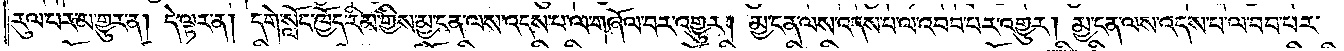རུལ་པར་མ་གྱུར་ན། དེ་ལྟར་ན། དགེ་སློང་ཁྱོད་རིམ་གྱིས་མྱ་ངན་ལས་འདས་པ་ལ་གཞོལ་བར་འགྱུར། མྱ་ངན་ལས་འདས་པ་ལ་འབབ་པར་འགྱུར། མྱ་ངན་ལས་འདས་པ་ལ་བབ་པར་
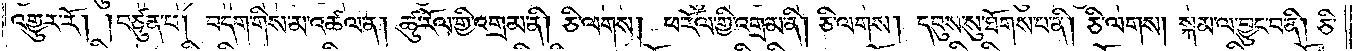འགྱུར་རོ། །བཙུན་པ། བདག་གིས་མ་འཚལ་ན། ཚུ་རོལ་གྱི་འགྲམ་ནི། ཅི་ལགས། ཕ་རོལ་གྱི་འགྲམ་ནི། ཅི་ལགས། དབུས་སུ་ཐོགས་པ་ནི། ཅི་ལགས། སྐམ་ལ་བྱུང་བ་ནི། ཅི་
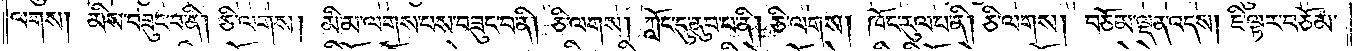ལགས། མིས་བཟུང་བ་ནི། ཅི་ལགས། མི་མ་ལགས་པས་བཟུང་བ་ནི། ཅི་ལགས། ཀློང་དུ་ནུབ་པ་ནི། ཅི་ལགས། ཁོང་རུལ་པ་ནི། ཅི་ལགས། བཅོམ་ལྡན་འདས། ཇི་ལྟར་བཅོམ་
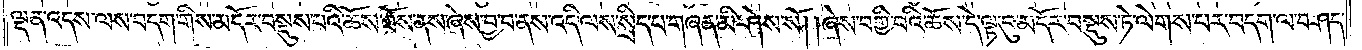ལྡན་འདས་ལས་བདག་གིས་མདོར་བསྡུས་པའི་ཆོས་ཐོས་ནས་ཞེས་བྱ་བ་ནས་འདི་ལས་སྲིད་པ་གཞན་མི་ཤེས་སོ། །ཞེས་བགྱི་བའི་ཆོས་དེ་ལྟ་བུ་མདོར་བསྡུས་ཏེ་ལེགས་པར་བདག་ལ་བཤད་
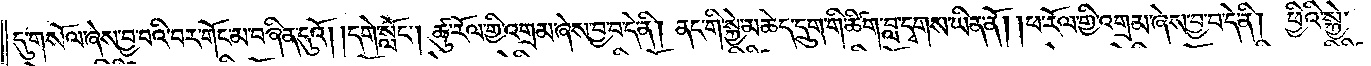དུ་གསོལ་ཞེས་བྱ་བའི་བར་གོང་མ་བཞིན་དུའོ། །དགེ་སློང༌། ཚུ་རོལ་གྱི་འགྲམ་ཞེས་བྱ་བ་དེ་ནི། ནང་གི་སྐྱེ་མཆེད་དྲུག་གི་ཚིག་བླ་དྭགས་ཡིན་ནོ། །ཕ་རོལ་གྱི་འགྲམ་ཞེས་བྱ་བ་དེ་ནི། ཕྱིའི་སྐྱེ་
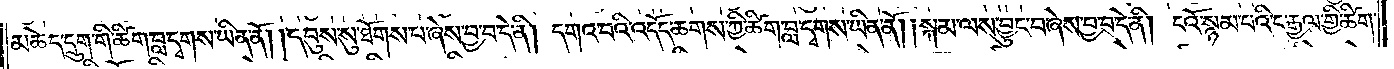མཆེད་དྲུག་གི་ཚིག་བླ་དྭགས་ཡིན་ནོ། །དབུས་སུ་ཐོགས་པ་ཞེས་བྱ་བ་དེ་ནི། དགའ་བའི་འདོད་ཆགས་ཀྱི་ཚིག་བླ་དྭགས་ཡིན་ནོ། །སྐམ་ལས་བྱུང་བ་ཞེས་བྱ་བ་དེ་ནི། ངའོ་སྙམ་པའི་ང་རྒྱལ་གྱི་ཚིག་
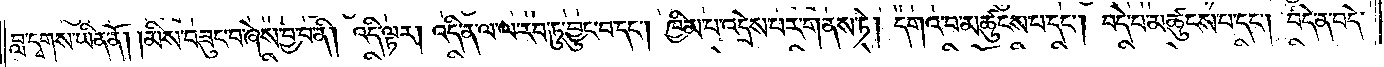བླ་དྭགས་ཡིན་ནོ། །མིས་བཟུང་བ་ཞེས་བྱ་བ་ནི། འདི་ལྟར། འདི་ན་ལ་ལ་རབ་ཏུ་བྱུང་བ་དང༌། ཁྱིམ་པ་འདྲེས་པར་གནས་ཏེ། དགའ་བ་མཚུངས་པ་དང༌། བདེ་བ་མཚུངས་པ་དང༌། བདེ་ན་བདེ་
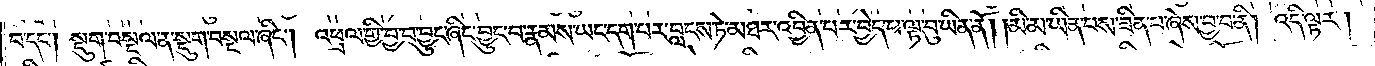བ་དང༌། སྡུག་བསྔལ་ན་སྡུག་བསྔལ་ཞིང༌། འཕྲལ་གྱི་བྱ་བ་བྱུང་ཞིང་བྱུང་བ་རྣམས་ཡང་དག་པར་བླངས་ཏེ་མཐར་འབྱིན་པར་བྱེད་པ་ལྟ་བུ་ཡིན་ནོ། །མི་མ་ཡིན་པས་ཟིན་པ་ཞེས་བྱ་བ་ནི། འདི་ལྟར།
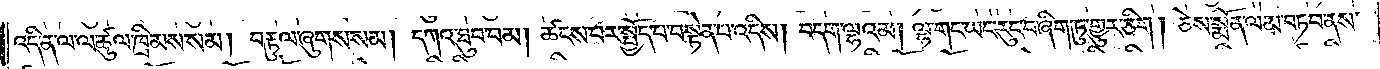འདི་ན་ལ་ལ་ཚུལ་ཁྲིམས་སམ། བརྟུལ་ཞུགས་སམ། དཀའ་ཐུབ་བམ། ཚངས་པར་སྤྱོད་པ་བསྟེན་པ་འདིས། བདག་ལྷའམ། ལྷ་གང་ཡང་རུང་བ་ཞིག་ཏུ་གྱུར་ཅིག །ཅེས་སྨོན་ལམ་བཏབ་ནས་
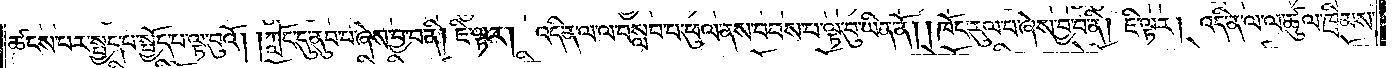ཚངས་པར་སྤྱད་པ་སྤྱོད་པ་ལྟ་བུའོ། །ཀློང་དུ་ནུབ་པ་ཞེས་བྱ་བ་ནི། ཇི་ལྟར། འདི་ན་ལ་ལ་བསླབ་པ་ཕུལ་ནས་བབས་པ་ལྟ་བུ་ཡིན་ནོ། །ཁོང་རུལ་པ་ཞེས་བྱ་བ་ནི། ཇི་ལྟར། འདི་ན་ལ་ལ་ཚུལ་ཁྲིམས་
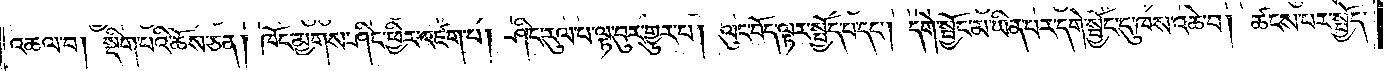འཆལ་བ། སྡིག་པའི་ཆོས་ཅན། ཁོང་མྱགས་ཤིང་ཕྱིར་འཛག་པ། ཤིང་རུལ་པ་ལྟ་བུར་གྱུར་པ། ལུང་བོད་ལྟར་སྤྱོད་པ་དང༌། དགེ་སྦྱོང་མ་ཡིན་པར་དགེ་སྦྱོང་དུ་ཁས་འཆེ་བ། ཚངས་པར་སྤྱོད་
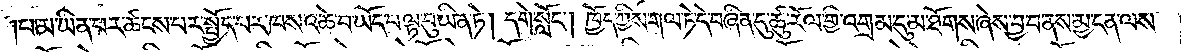པ་མ་ཡིན་པར་ཚངས་པར་སྤྱོད་པར་ཁས་འཆེ་བ་ཡོད་པ་ལྟ་བུ་ཡིན་ཏེ། དགེ་སློང༌། ཁྱོད་ཀྱིས་གལ་ཏེ་དེ་བཞིན་དུ་ཚུ་རོལ་གྱི་འགྲམ་དུ་མ་ཐོགས་ཞེས་བྱ་བ་ནས་མྱ་ངན་ལས་
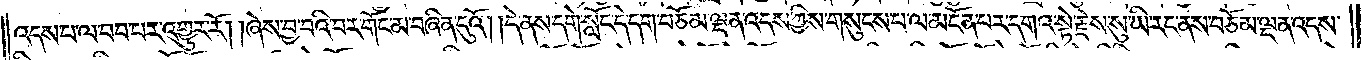འདས་པ་ལ་བབ་པར་འགྱུར་རོ། །ཞེས་བྱ་བའི་བར་གོང་མ་བཞིན་དུའོ། །དེ་ནས་དགེ་སློང་དེ་དག་བཅོམ་ལྡན་འདས་ཀྱིས་གསུངས་པ་ལ་མངོན་པར་དགའ་སྟེ་རྗེས་སུ་ཡི་རང་ནས་བཅོམ་ལྡན་འདས་
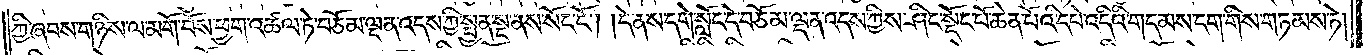ཀྱི་ཞབས་གཉིས་ལ་མགོ་བོས་ཕྱག་འཚལ་ཏེ་བཅོམ་ལྡན་འདས་ཀྱི་སྤྱན་སྔ་ནས་སོང་ངོ༌། །དེ་ནས་དགེ་སློང་དེ་བཅོམ་ལྡན་འདས་ཀྱིས་ཤིང་སྡོང་པོ་ཆེན་པོའི་དཔེ་འདིའི་གདམས་ངག་གིས་གཏམས་ཏེ།
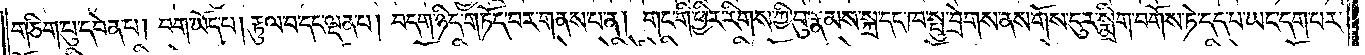གཅིག་པུ་དབེན་པ། བག་ཡོད་པ། རྟུལ་བ་དང་ལྡན་པ། བདག་ཉིད་གཏོད་བར་གནས་པ་ན། གང་གི་ཕྱིར་རིགས་ཀྱི་བུ་རྣམས་སྐྲ་དང་ཁ་སྤུ་བྲེགས་ནས་གོས་ངུར་སྨྲིག་བགོས་ཏེ་དད་པ་ཡང་དག་པར་
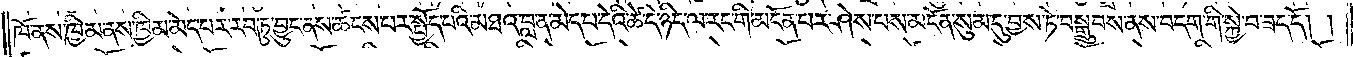ཁོ་ནས་ཁྱིམ་ནས་ཁྱིམ་མེད་པར་རབ་ཏུ་བྱུང་ནས་ཚངས་པར་སྤྱོད་པའི་མཐའ་བླ་ན་མེད་པ་དེའི་ཚེ་དེ་ཉིད་ལ་རང་གི་མངོན་པར་ཤེས་པས་མངོན་སུམ་དུ་བྱས་ཏེ་བསྒྲུབས་ནས་བདག་གི་སྐྱེ་བ་ཟད་དོ། །
